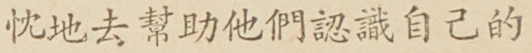忱地去幫助他們認識自己的
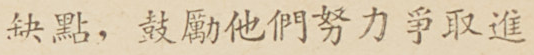缺點，鼓勵他們努力爭取進
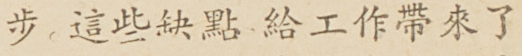步，這些缺點給工作帶來了
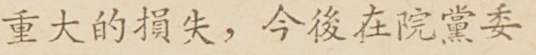重大的損失，今後在院黨委
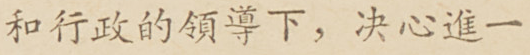和行政的領導下，決心進一
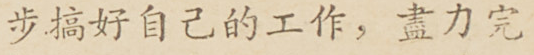步搞好自己的工作，盡力完
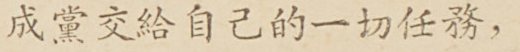成黨交給自己的一切任務，
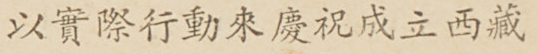以實際行動來慶祝成立西藏
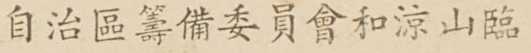自治區籌備委員會和涼山臨
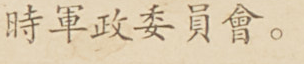時軍政委員會。
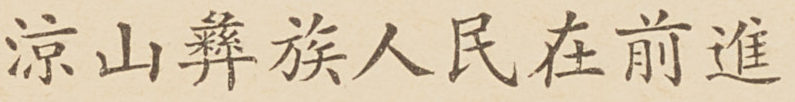涼山彝族人民在前進
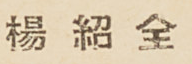楊 紹 全
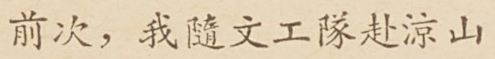前次，我隨文公隊赴涼山
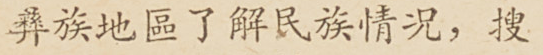彝族地區了解民族情況，搜
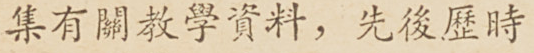集有關教學資料，先後歷時
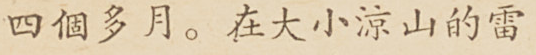四個多月。在大小涼山的雷
